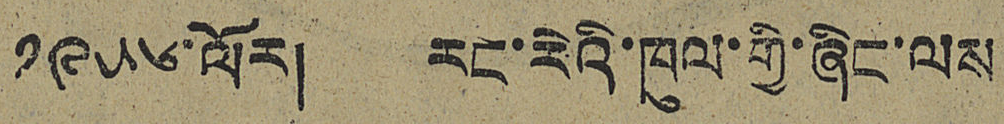༡༩༥༦ ་ལོར། རང་རེའི་ཁུལ་གྱི་ཞིང་ལས
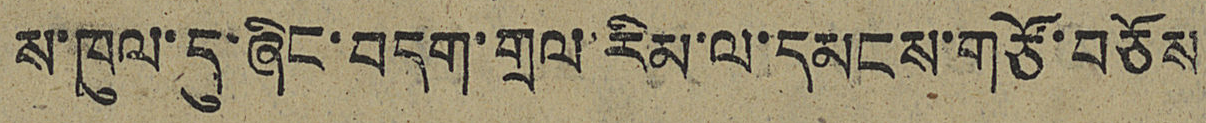ས་ཁུལ་དུ་ཞིང་བདག་གྲལ་རིམ་ལ་དམངས་གཙོ་བཅོས
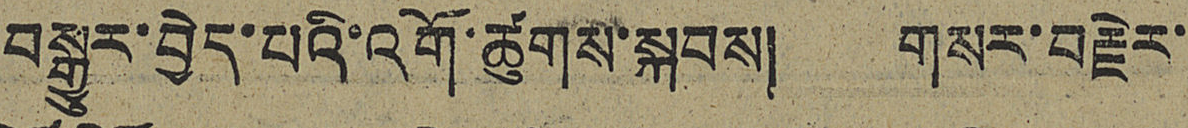བསྒྱུར་བྱེད་པའི་འགོ་ཚུགས་སྐབས། གསར་བརྗེར་
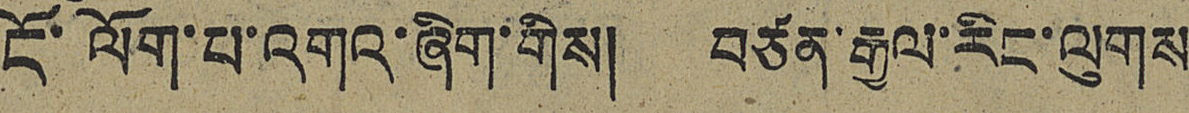ངོ་ལོག་པ་འགའ་ཞིག་གིས། བཙན་རྒྱལ་རིང་ལུགས
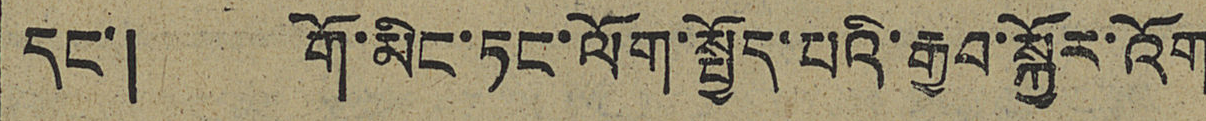དང་། གོ་མིང་ཏང་ལོག་སྤྱོདཔའི་རྒྱབ་སྐྱོ་ར་འོག
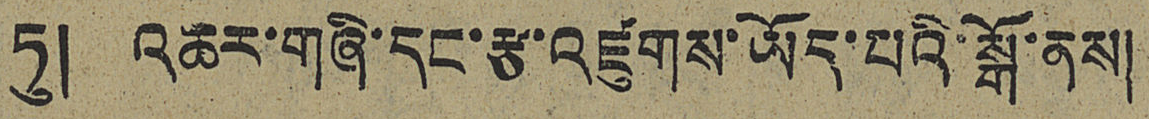ཏུ། འཆར་གཞི་དང་རྩ་འཛུགས་ཡོད་པའི་སྒོ་ནས།
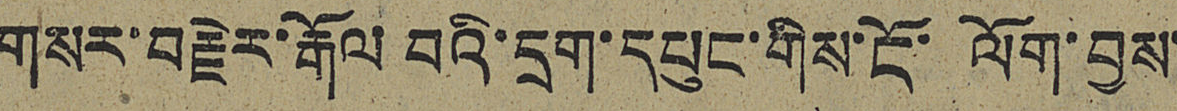གསར་བརྗེར་རྒོལ བའི་དྲག་དཔུང་གིས་ངོ་ལོག་བྱས་
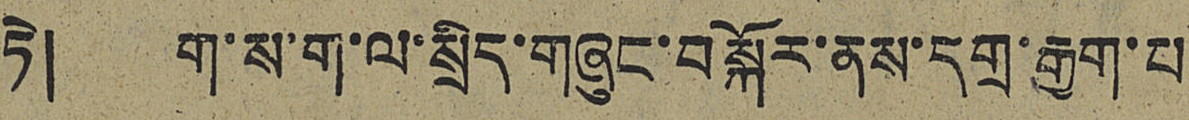ཏེ། ག་ས་ག་ལ་སྲིད་གཞུང་བསྐོར་ནས་དགྲ་རྒྱག་པ
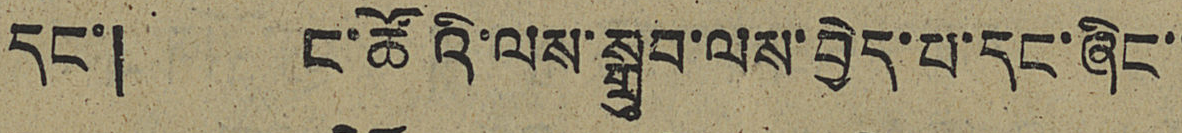དང་། ང་ཚོའི་ལས་སྒྲུབ་ལས་བྱེད་པ་དང་ཞིང་་
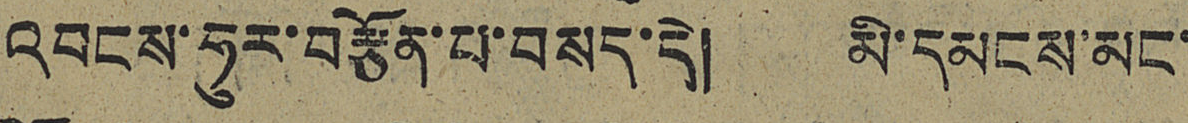འབངས་ཧུར་བརྩན་པ་བསད་དེ། མི་དམངས་མང་
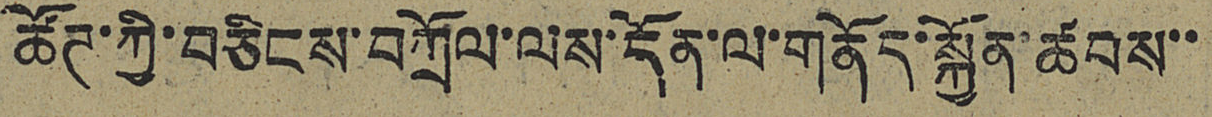ཚོཊ་ཀྱི་བཅིངས་བཀྲོལ་ལས་དོན་ལ་གནོད་སྐྱོན་ཚབས་་
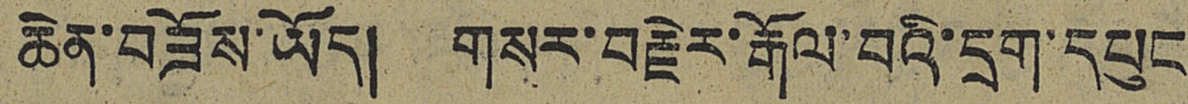ཆེན་བཟོས་ཡོད། གསར་བརྗེར་རྒོལ་བའི་དྲག་དཔུང་
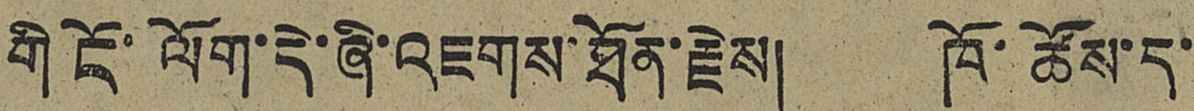གི ངོ་ལོག་དེ་ཞི་འཇགས་ཐོན་རྗེས། ཁོ་ཚོས་ད་
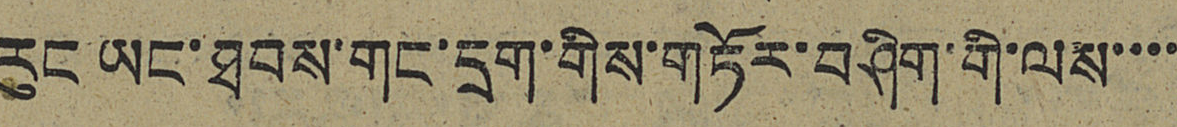རུང ཡང་ཐབས་གང་དྲག་གིས་གཏོར་བཤིག་གི་ལས་་་་
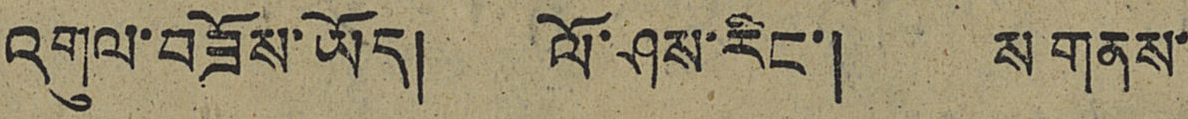འགུལ་བཟོས་ཡོད། ལོ་ཤས་རིང་། ས གནས་
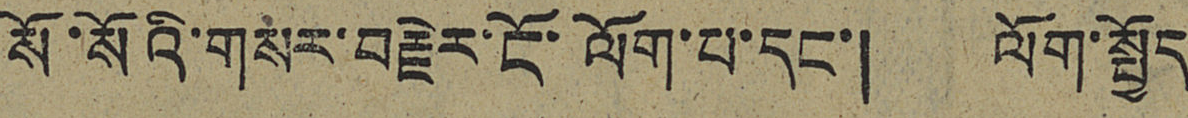སོ་སོའི་གསར་བརྗེར་ངོ་ལོག་པ་དང་། ལོག་སྤྱོད
